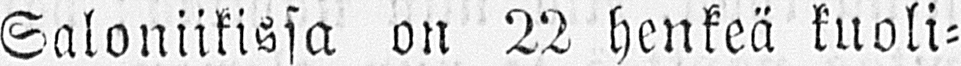Saloniikissa on 22 henkeä kuoli-
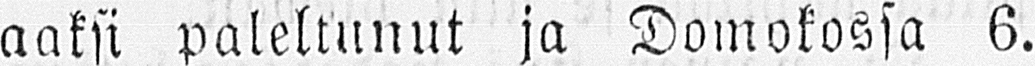aaksi paleltunut ja Domokossa 6.
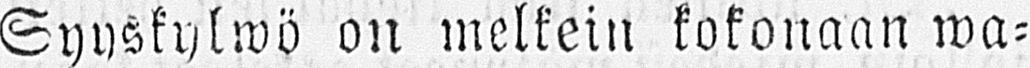Syyskylwö on melkein kokonaan wa-
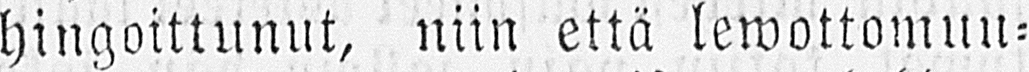hingoittunut, niin että lewottomuu-
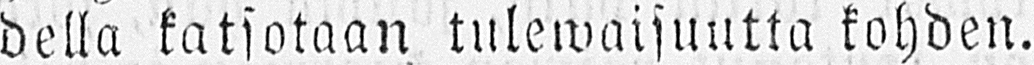della katsotaan tulewaisuutta kohden.
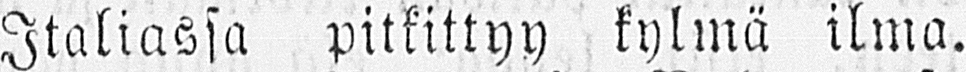Italiassa pitkittyy kylmä ilma.
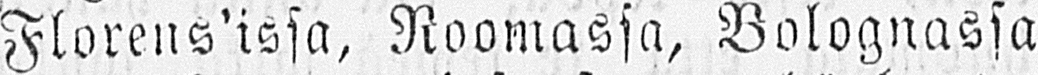Florens'issa, Roomassa, Bolognassa
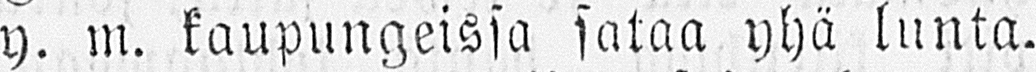y. m. kaupungeissa sataa yhä lunta.
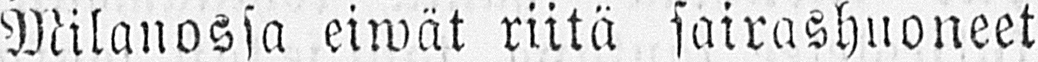Milanossa eiwät riitä sairashuoneet
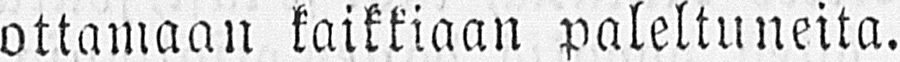ottamaan kaikkiaan paleltuneita.
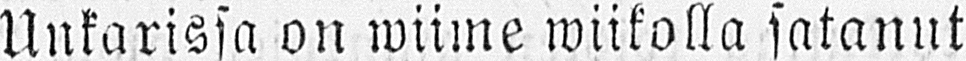Unkarissa on wiime wiikolla satanut
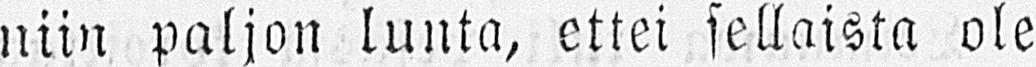niin paljon lunta, ettei sellaista ole
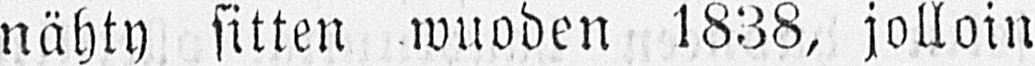nähty sitten wuoden 1838, jolloin
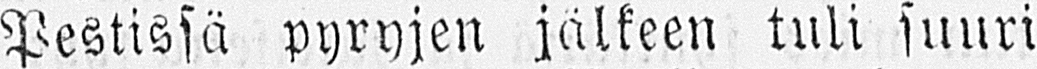Pestissä pyryjen jälkeen tuli suuri
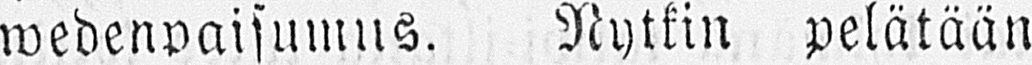wedenpaisumus. Nytkin pelätään
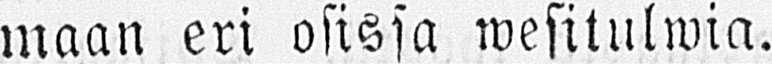maan eri osissa wesitulwia.
